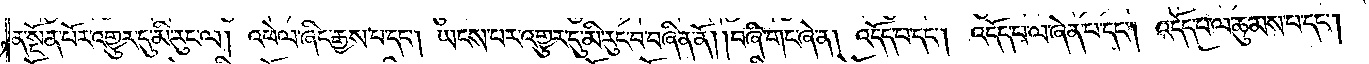ན་སྔོན་པོར་འགྱུར་དུ་མི་རུང་ལ། འཕེལ་ཞིང་རྒྱས་པ་དང༌། ཡངས་པར་འགྱུར་དུ་མི་རུང་བ་བཞིན་ནོ། །བཞི་གང་ཞེ་ན། འདོད་པ་དང༌། འདོད་པ་ལ་ཞེན་པ་དང༌། འདོད་པ་ལ་ཆུམས་པ་དང༌།
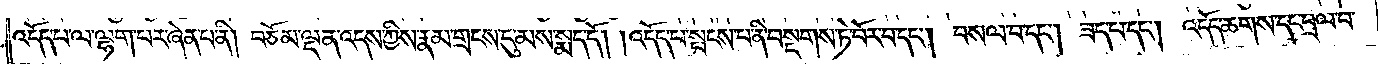འདོད་པ་ལ་ལྷག་པར་ཞེན་པ་ནི། བཅོམ་ལྡན་འདས་ཀྱིས་རྣམ་གྲངས་དུ་མས་སྨད་དོ། །འདོད་པ་སྤངས་པ་ནི་བསྔགས་ཏེ་པོར་བ་དང༌། བསལ་བ་དང༌། ཟད་པ་དང༌། འདོད་ཆགས་དང་བྲལ་བ་
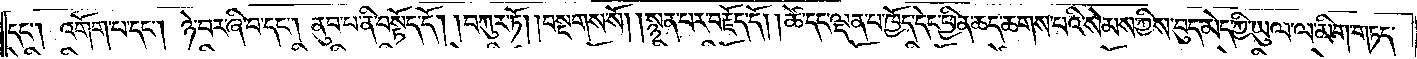དང༌། འགོག་པ་དང༌། ཉེ་བར་ཞི་བ་དང༌། ནུབ་པ་ནི་བསྟོད་དོ། །བཀུར་ཏོ། །བསྔགས་སོ། །སྙན་པར་བརྗོད་དོ། །ཚེ་དང་ལྡན་པ་ཁྱོད་དེང་ཕྱིན་ཆད་ཆགས་པའི་སེམས་ཀྱིས་བུད་མེད་ཀྱི་ཡུལ་ལ་མིག་གཏད་
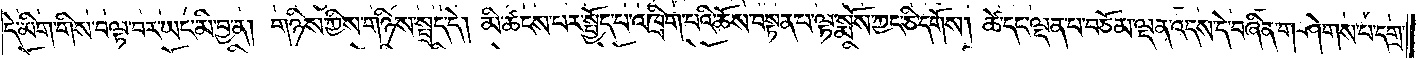དེ་མིག་གིས་བལྟ་བར་ཡང་མི་བྱ་ན། གཉིས་ཀྱིས་གཉིས་སྤྲད་དེ། མི་ཚངས་པར་སྤྱོད་པ་འཁྲིག་པའི་ཆོས་བསྟན་པ་ལྟ་སྨོས་ཀྱང་ཅི་དགོས། ཚེ་དང་ལྡན་པ་བཅོམ་ལྡན་འདས་དེ་བཞིན་གཤེགས་པ་དགྲ་
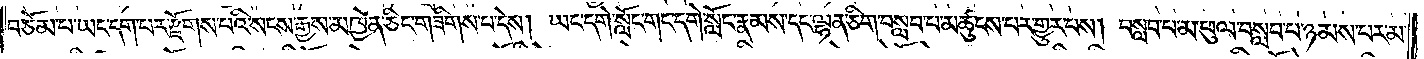བཅོམ་པ་ཡང་དག་པར་རྫོགས་པའི་སངས་རྒྱས་མཁྱེན་ཅིང་གཟིགས་པ་དེས། ཡང་དགེ་སློང་གང་དགེ་སློང་རྣམས་དང་ལྷན་ཅིག་བསླབ་པ་མཚུངས་པར་གྱུར་པས། བསླབ་པ་མ་ཕུལ་བསླབ་པ་ཉམས་པར་མ་
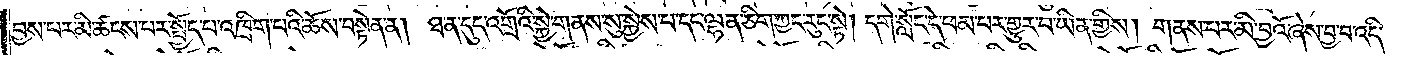བྱས་པར་མི་ཚངས་པར་སྤྱོད་པ་འཁྲིག་པའི་ཆོས་བསྟེན་ན། ཐ་ན་དུད་འགྲོའི་སྐྱེ་གནས་སུ་སྐྱེས་པ་དང་ལྷན་ཅིག་ཀྱང་རུང་སྟེ། དགེ་སློང་དེ་ཕམ་པར་གྱུར་བ་ཡིན་གྱིས། གནས་པར་མི་བྱའོ་ཞེས་བྱ་བ་འདི་
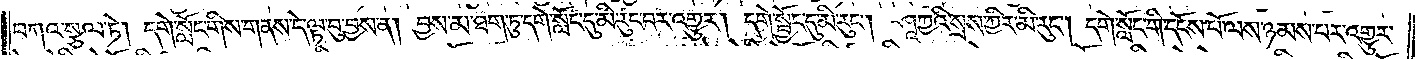བཀའ་སྩལ་ཏེ། དགེ་སློང་གིས་གནས་དེ་ལྟ་བུ་བྱས་ན། བྱས་མ་ཐག་ཏུ་དགེ་སློང་དུ་མི་རུང་བར་འགྱུར། དགེ་སྦྱོང་དུ་མི་རུང༌། ཤཱཀྱའི་སྲས་ཀྱིར་མི་རུང༌། དགེ་སློང་གི་དངོས་པོ་ལས་ཉམས་པར་འགྱུར་
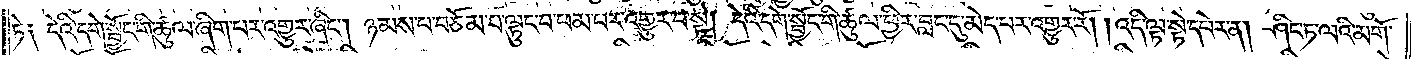ཏེ༑ དེའི་དགེ་སྦྱོང་གི་ཚུལ་ཞིག་པར་འགྱུར་ཞིང༌། ཉམས་པ་བཅོམ་པ་ལྟུང་བ་ཕམ་པར་འགྱུར་བ་སྟེ། དེའི་དགེ་སྦྱོང་གི་ཚུལ་ཕྱིར་བླང་དུ་མེད་པར་འགྱུར་རོ། །འདི་ལྟ་སྟེ་དཔེར་ན། ཤིང་ཏ་ལའི་མགོ་
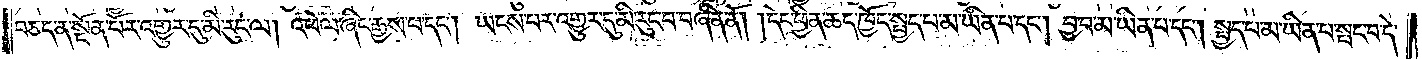བཅད་ན་སྔོན་པོར་འགྱུར་དུ་མི་རུང་ལ། འཕེལ་ཞིང་རྒྱས་པ་དང༌། ཡངས་པར་འགྱུར་དུ་མི་རུང་བ་བཞིན་ནོ། །དེང་ཕྱིན་ཆད་ཁྱོད་སྤྱད་པ་མ་ཡིན་པ་དང༌། བྱ་བ་མ་ཡིན་པ་དང༌། སྤྱད་པ་མ་ཡིན་པ་སྤང་བ་དེ་
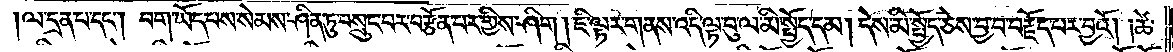ལ་དྲན་པ་དང༌། བག་ཡོད་པས་སེམས་ཤིན་ཏུ་བསྲུང་བར་བརྩོན་པར་གྱིས་ཤིག །ཇི་ལྟར་གནས་འདི་ལྟ་བུ་ལ་མི་སྤྱོད་དམ། དེས་མི་སྤྱོད་ཅེས་བྱ་བ་བརྗོད་པར་བྱའོ། །ཚེ་
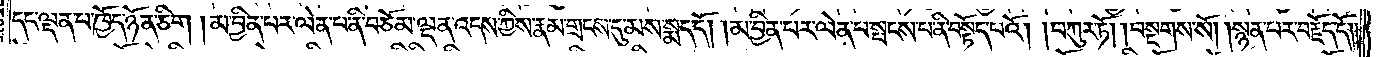དང་ལྡན་པ་ཁྱོད་ཉོན་ཅིག །མ་བྱིན་པར་ལེན་པ་ནི་བཅོམ་ལྡན་འདས་ཀྱིས་རྣམ་གྲངས་དུ་མས་སྨད་དོ། །མ་བྱིན་པར་ལེན་པ་སྤངས་པ་ནི་བསྟོད་པའོ། །བཀུར་ཏོ། །བསྔགས་སོ། །སྙན་པར་བརྗོད་དོ༎
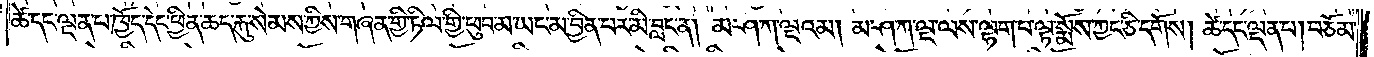ཚེ་དང་ལྡན་པ་ཁྱོད་དེང་ཕྱིན་ཆད་རྐུ་སེམས་ཀྱིས་གཞན་གྱི་ཏིལ་གྱི་ཕུབ་མ་ཡང་མ་བྱིན་པར་མི་བླང་ན། མ་ཤ་ཀ་ལྔའམ། མ་ཤ་ཀ་ལྔ་ལས་ལྷག་པ་ལྟ་སྨོས་ཀྱང་ཅི་དགོས། ཚེ་དང་ལྡན་པ། བཅོམ་
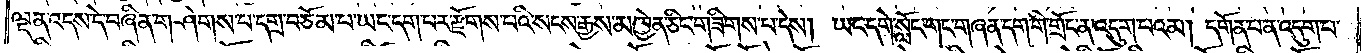ལྡན་འདས་དེ་བཞིན་གཤེགས་པ་དགྲ་བཅོམ་པ་ཡང་དག་པར་རྫོགས་པའི་སངས་རྒྱས་མཁྱེན་ཅིང་གཟིགས་པ་དེས། ཡང་དགེ་སློང་གང་གཞན་དག་གི་གྲོང་ན་འདུག་པའམ། དགོན་པ་ན་འདུག་པ་
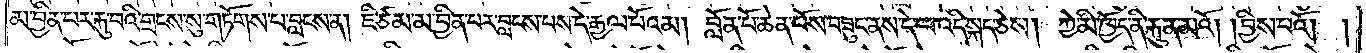མ་བྱིན་པར་རྐུ་བའི་གྲངས་སུ་གཏོགས་པ་བླངས་ན། ཇི་ཙམ་མ་བྱིན་པར་བླངས་པས་དེ་རྒྱལ་པོའམ། བློན་པོ་ཆེན་པོས་བཟུང་ནས་དེ་ལ་འདི་སྐད་ཅེས། ཀྱེ་མི་ཁྱོད་ནི་རྐུན་མའོ། །བྱིས་པའོ། །
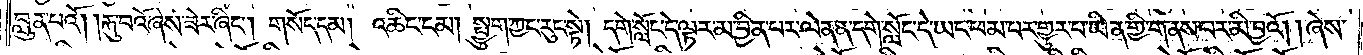བླུན་པའོ། །རྐུ་བའོ་ཞེས་ཟེར་ཞིང༌། གསོད་དམ། འཆིང་ངམ། སྤྱུག་ཀྱང་རུང་སྟེ། དགེ་སློང་དེ་ལྟར་མ་བྱིན་པར་ལེན་ན་དགེ་སློང་དེ་ཡང་ཕམ་པར་གྱུར་པ་ཡིན་གྱི་གནས་པར་མི་བྱའོ། །ཞེས་
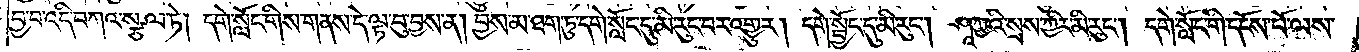བྱ་བ་འདི་བཀའ་སྩལ་ཏེ། དགེ་སློང་གིས་གནས་དེ་ལྟ་བུ་བྱས་ན། བྱས་མ་ཐག་ཏུ་དགེ་སློང་དུ་མི་རུང་བར་འགྱུར། དགེ་སྦྱོང་དུ་མི་རུང༌། ཤཱཀྱའི་སྲས་ཀྱིར་མི་རུང༌། དགེ་སློང་གི་དངོས་པོ་ལས་
